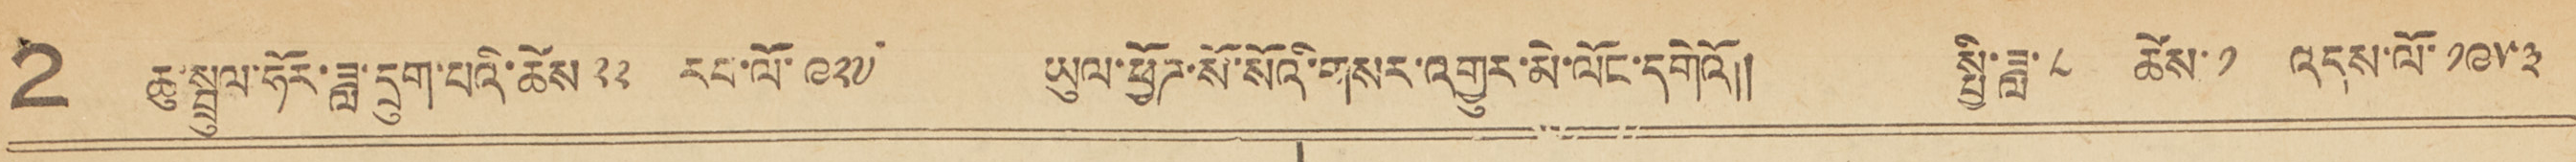2 ཆུ་སྤྲུལ་ཧོར་ཟླ་དྲུག་པའི་ཚེས་ ༢༢ རབ་ལོ་ ༩༢༧ ཡུལ་ཕྱོགས་སོ་སོའི་གསར་འགྱུར་མེ་ལོང་དགེའོ།། སྤྱི་ཟླ་༨ ཚེས་༡ འདས་ལོ་ ༡༩༥༣
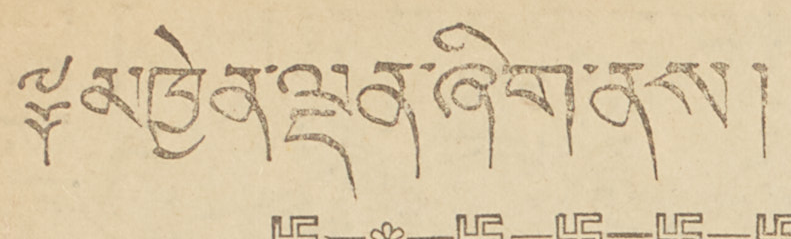༈ མཁྱེན་ལྡན་ཞིག་ནས།
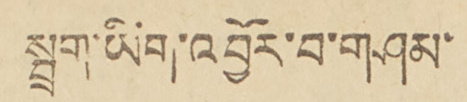སྦྲག་ཡིག་འབྱོར་བ་གཤམ་
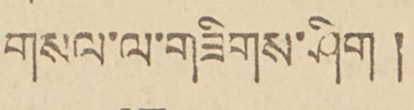གསལ་ལ་གཟིགས་ཤིག།།
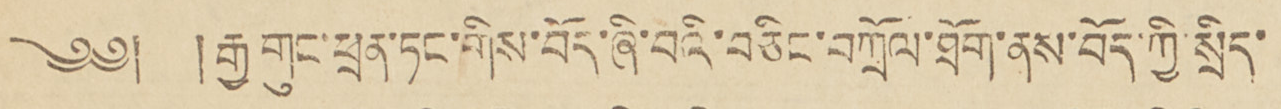༄༅།།རྒྱ་གུང་ཕྲན་ཏང་གིས་བོད་ཞི་བའི་བཅིང་བཀྲོལ་ཐོག་ནས་བོད་ཀྱི་སྲིད་
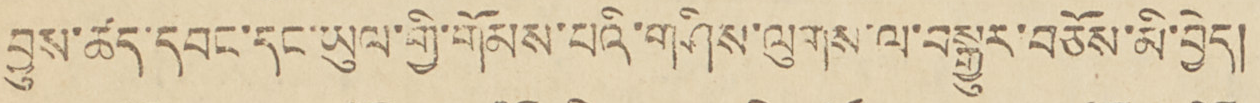བྱུས་ཚད་དབང་དང་ཡུལ་གྱི་གོམས་པའི་གཤིས་ལུགས་ལ་བསྒྱུར་བཅོས་མི་བྱེད།
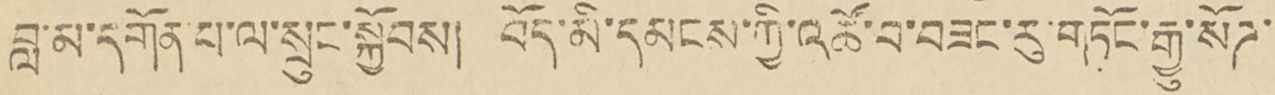བླ་མ་དགོན་པ་ལ་སྲུང་སྐྱོབས། བོད་མི་དམངས་ཀྱི་འཚོ་བ་བཟང་རུ་གཏོང་རྒྱུ་སོཌ་
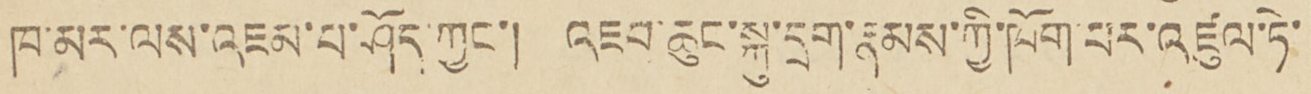ཁ་མར་ལས་འཇམ་པ་ཤོད་ཀྱང་། འཇབ་ཆུང་སྐུ་དྲག་རྣམས་ཀྱི་ཁོག་པར་འཛུལ་ཏེ་
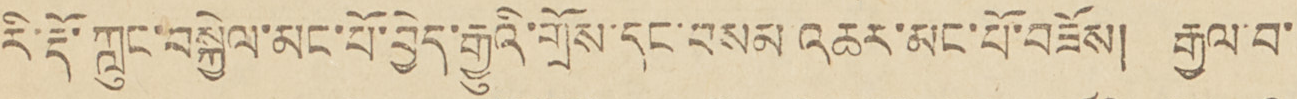རི་རྡོ་ཀླུང་བསྐྱེལ་མང་པོ་བྱེད་རྒྱུའི་གྲོས་དང་བསམ འཆར་མང་པོ་བཟོས། རྒྱལ་བ་
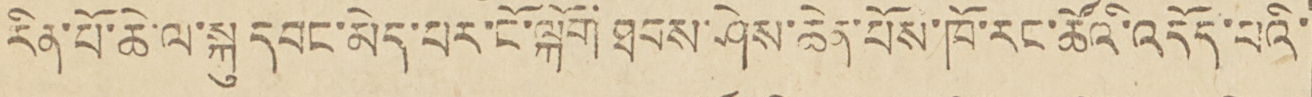རིན་པོ་ཆེ་ལ་སྐུ དབང་མེད་པའི་ངོ་ལྐོག ཐབས་ཤེས་ཆེན་པོས་ཁོ་རང་ཚོའི་འདོད་པའི་
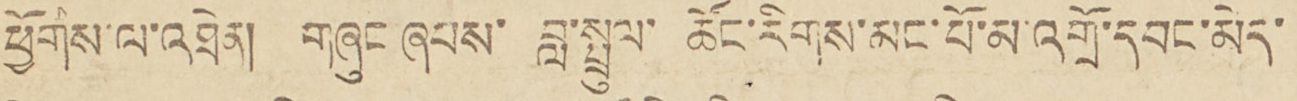ཕྱོགས་ལ་འཐེན། གཞུང ཞབས་བླ་སྤྲུལ་ཚོང་རོགས་མང་པོ་མ་འགྲོ་དབང་མེད་
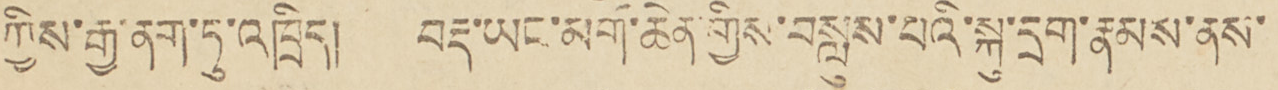ཀྱིས་རྒྱ་ནག་རུ་འཁྲིད། བརྡ་ཡང་མགོ་ཆེན་གྱིས་བསླུས་པའི་སྐུ་དྲག་རྣམས་ནས་
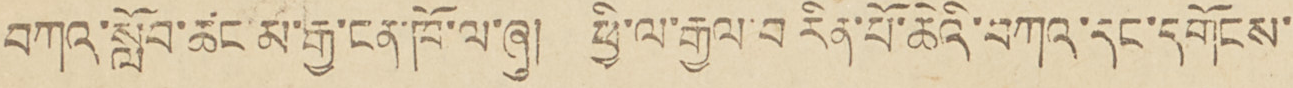བཀའ་སློབ་ཚང་མ་རྒྱང་ཁོ་ལ་ཞུ། ཕྱི་ལ་རྒྱལ་བ་རིན་པོ་ཆེའི་བཀའ་དང་དགོངས་
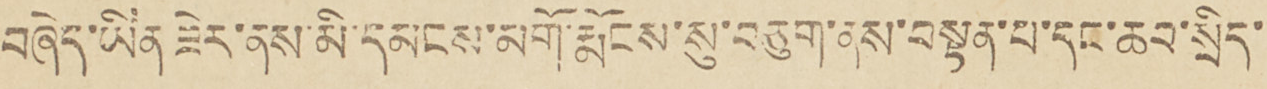བཞེད་ཡིན ཟེར་ནས་མི་དམངས་མགོ་རྨོངས་སུ་བཅུག་ནས་བསྟན་པ་དང་ཆབ་སྲིད་
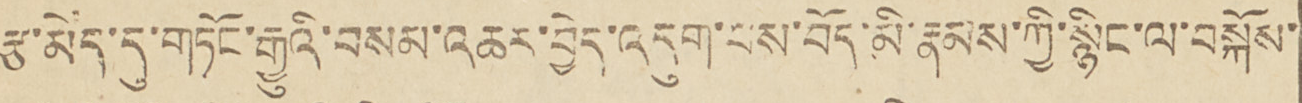རྩ་མེད་དུ་གཏོང་རྒྱུའི་བསམ་འཆར་བྱེད་འདུག་པས་བོད་མི་རྣམས་ཀྱི་སྙིང་ལ་བསྐོས་
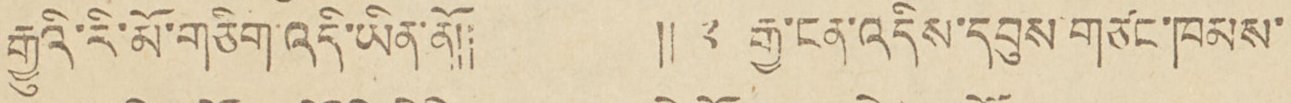རྒྱུའི་རི་མོ་གཅིག་འདི་ཡིན་ནོ།། །།༸རྒྱ་ངན་འདིས་དབུས་གཙང་ཁབས་
